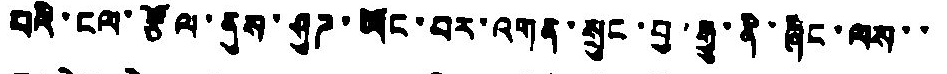བའི་ངལ་རྩོལ་ནུས་ཤུཌ་ཡོང་བར་འགན་སྲུང་བྱ་རྒྱུ་ནི་ཞིང་ལས་་
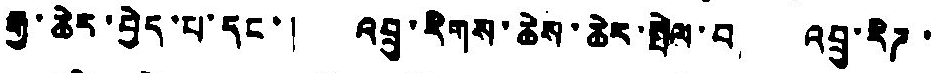རྒྱ་ཆེར་བྱེད་པ་དང་། འབྲུ་རིགས་ཆེས་ཆེར་སྤེལ་བ། འབྲུ་རིཌ་
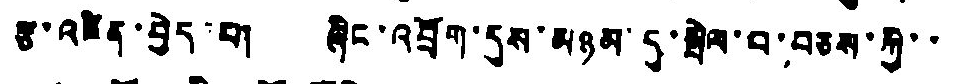རྩ་འཛིན་བྱེད་པ། ཞིང་འབྲོག་དུས་མཉམ་དུ་སྤེལ་བ་བཅས་ཀྱི་་
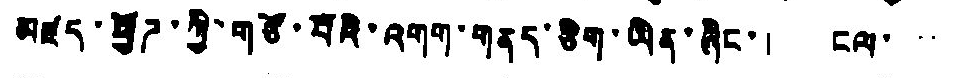མཛད་ཕྱོཌ་ཀྱི་གཙོ་བོའི་འགག་གནད་ཅིག་ཡིན་ཞིང་། ངལ་་་
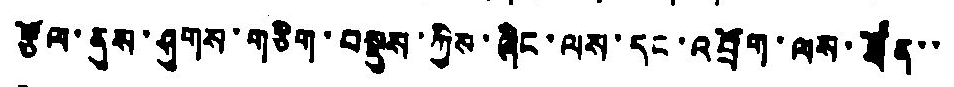རྩོལ་ནུས་ཤུགས་གཅིག་བསྡུས་ཀྱིས་ཞིང་ལས་དང་འབྲོག་ལས་ཐོན་་
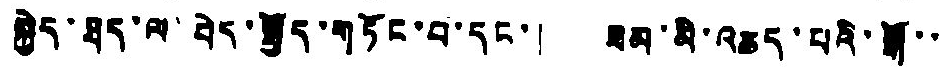སྐྱེད་ཐད་ལ་བེད་སྤྱོད་གཏོང་བ་དང་། ཟམ་མི་འཆད་པའི་སྒོ་་
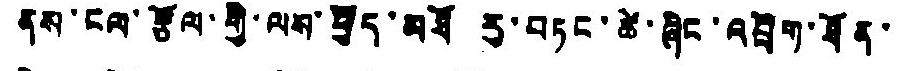ནས་ངལ་རྩོལ་གྱི་ལས་ཕྱོད་མཐོ རུ་བཏང་ཚེ་ཞིང་འབྲོག་ཐོན་་་་
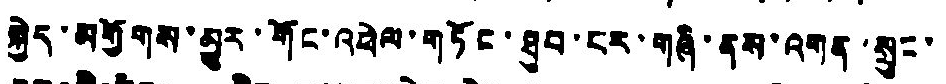སྐྱེད་མགྱོགས་མྱུར་གོང་འཕེལ་གཏོང་ཐུབ་པར་གཞི་ནས་འགན་སྲུང་
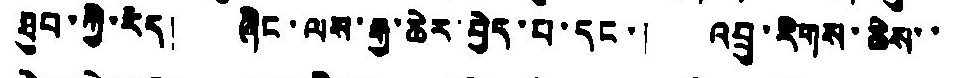ཐུབ་ཀྱི་རེད། ཞིང་ལས་རྒྱ་ཆེར་བྱེད་པ་དང་། འབྲུ་རིགས་ཆེས་་
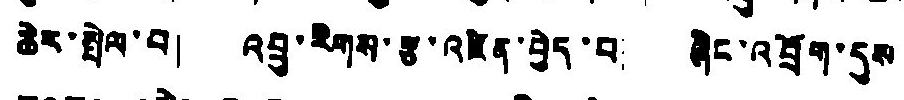ཆེར་སྤེལ་བ། འབྲུ་རིགས་རྩ་འཛིན་བྱེད་པ། ཞིང་འབྲོག་དུས
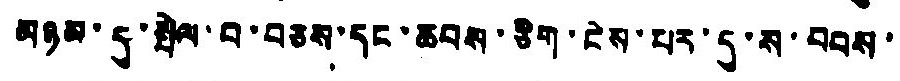མཉམ་དུ་སྤེལ་བ་བཅས་དང་ཆབས་ཅིག་ངེས་པར་དུ་ས་བབས་
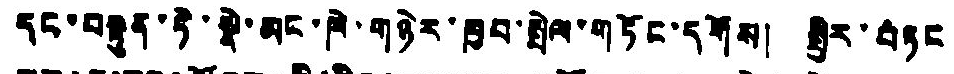དང་བསྟུན་ཏེ་སྣེ་མང་ཁེ་གཉེར་ཁྱབ་སྤེལ་གཏོང་དགོས། སྤྱིར་བཏང
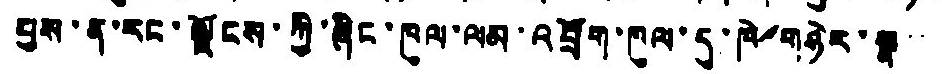བྱས་ན་རང་ལྗོངས་ཀྱི་ཞིང་ཁུལ་ལམ་འབྲོག་ཁུལ་དུ་ཁེ་གཉེར་སྣ་་
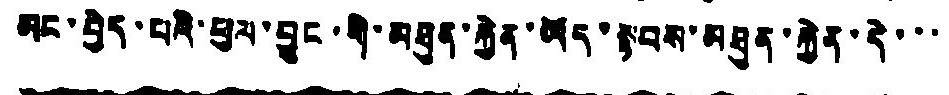མང་བྱེད་པའི་ཕུལ་བྱུང་གི་མཐུན་རྐྱེན་ཡོད་སྟབས་མཐུན་རྐྱེན་དེ་་་
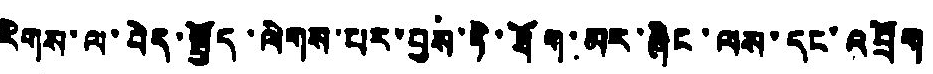རིགས་ལ་བེད་སྤྱོད་ལེགས་པར་བྱས་ཏེ་ཐོག་མར་ཞིང་ལས་དང་འབྲོག
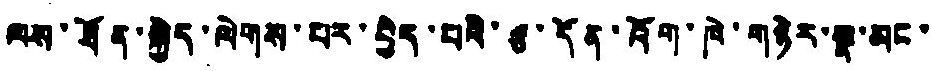ལས་ཐོན་སྐྱེད་ལེགས་པར་བྱེད་པའི་རྩ་དོན་འོག་ཁེ་གཉེར་སྣ་མང་
